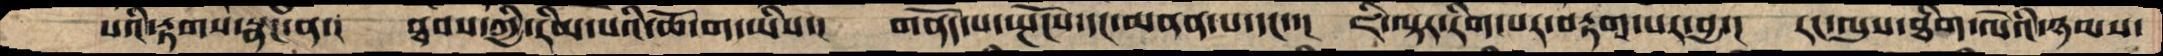པའི་རྟགས་སྣང་ན་།  ཐབས་ཀྱི་རིམ་པའི་ཆོ་ག་ཡིས་།  གནདོ་པ་སྤོངས་དང་མནན་པ་དང་་།  ཇི་ལྟར་རིག་པར་བརྟག་པར་བྱ་།  རང་ལུས་ཐིག་ལེའི་ཉམས་
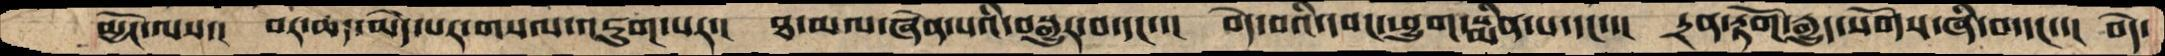མྱོང་ལས་།  བར་ཆད་མེད་པར་གསལ་འཇུག་པར་།  ཐ་མལ་ཞེན་པའི་བསྒྱུར་བ་དང་་།  བདེ་བའི་དབང་ཕྱུག་སྨིན་པ་དང་་།  དྲན་རྟོག་རྒྱུད་སོགས་ཞི་བ་དང་་།  བདེ་
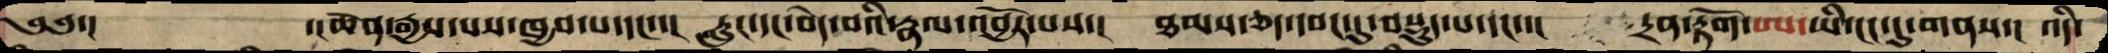༄༅་།     ་།ཆེན་རྒྱས་པས་ཁྱབ་པ་དང་་།  རླུང་དང་བདེ་བའི་སྣལ་འབྱོར་པས་།  ཐམས་ཅད་དབང་དུ་བསྡུད་པ་དང་་།  དྲན་རྟོག་ཨ་ཡི་ངང་དུ་གནས་།  འདི་
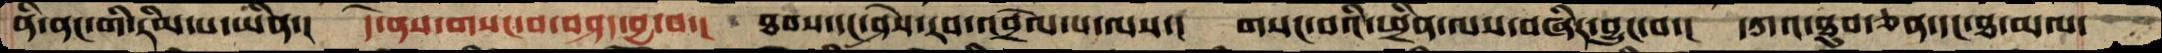ནི་ནང་གི་རིམ་པ་ཡིན་།  དེ་ནས་གསང་བ་བཤད་བྱ་བ་།  ཐབས་དང་ཤེས་རབ་འབྲེལ་པ་ལས་།  གསང་བའི་ཕྲིན་ལས་བཞིར་བྱུང་པ་།  དཀའ་ཐུབ་ཅན་དང་ཐ་མལ་
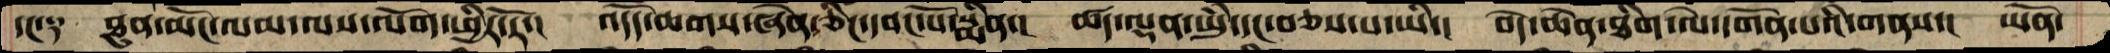དང༑   ཐུན་མོང་ལམ་ལས་ལོག་ཕྱིར་རོ་།  འདོད་ཆགས་ཞེན་ཅིང་དབང་པོ་སྨིན་།  ཚད་ལྡན་ཡུཾ་དང་བཅས་པ་ཡི་།  བདེ་ཆེན་ཐིག་ལེ་དགོན་པའི་གནས་།  ཡོན་
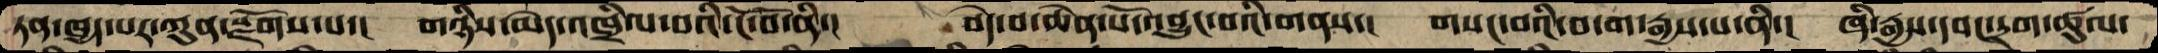ཏན་ཁྱད་པར་ཀུན་སྫོགས་པ་།  གཉིས་མེད་འཁྲིལ་བའི་ངོ་བོ་ནི་།  བདེ་བ་ཆེན་པོ་འབྱུང་བའི་གནས་།  གསང་བའི་བདག་རྒྱས་པ་ནི་།  ཞི་རྒྱས་དབང་དྲག་ཚུལ་
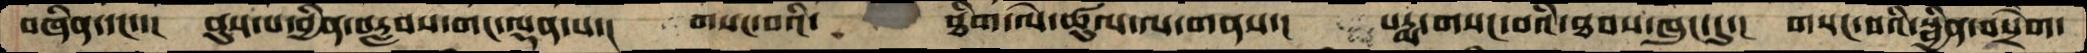བཞིན་དང་་།  ནུས་པ་བྱིན་བརླབས་གང་ལྡན་པ་།  གསང་བའི་    ཐིག་ལེ་ཚུལ་ལ་གནས་།  པདྨ་གསང་བའི་ཐབས་ཁུང་དུ་།  གསང་བའི་སྦྱིན་བསྲེག་
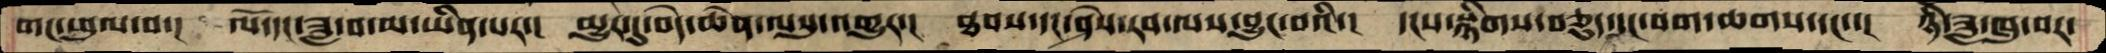གང་ཕུལ་བ་།  ལོ་དང་ཟླ་བ་མ་ཡིན་པར་།  མྱུར་དུ་བདེ་ཆེན་ལསུ་འགྱུར་།  ཐབས་དང་ཤེས་རབ་ལས་བྱུང་བའི་།  དངས་སྙིགས་བཅུད་དང་བག་ཆགས་དང་་།  ཉི་ཟླ་ཁུ་བར་
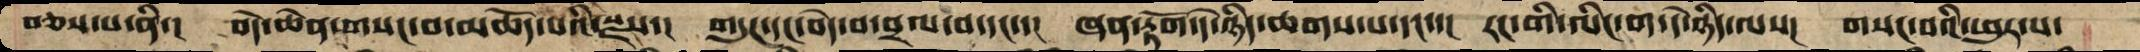བཅས་པ་ནི་།  བདེ་ཆེན་གསང་བ་མཆོད་པའི་སྫས་།  གདུཌ་དང་བདེ་བ་བྲལ་བ་དང་་།   ཞན་རྟོག་དེ་ཉིད་ཆགས་པ་དང་་།  རང་གི་ལིང་ག་དེ་ཉིད་ལས་།  གསང་བའི་ཕུར་པ་
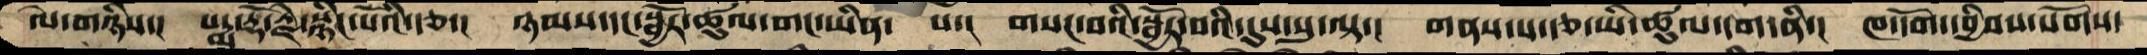ལེ་གཉིས་།  པདྨ་རྡོ་རྗེ་སྙིང་པོའི་རྩ་།  ཉམས་དང་སྦྱོར་ཚུལ་གང་ཡིན་  པ་།  གསང་བའི་སྦྱོར་བའི་དུས་སུ་ལྟ་།  གནས་པ་རྩ་ཡི་ཚུལ་དག་ནི་།  ཁ་དོག་དབྱིབས་སོགས་
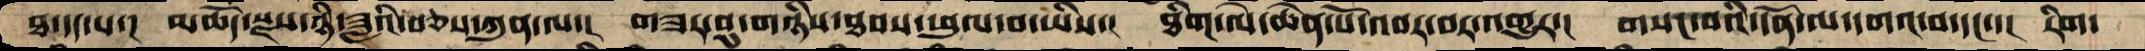ཐ་དད་པ་།  མཆོད་སྫས་ཉི་ཟླའི་བཅས་ཀུན་ལ་།  གཟར་བུ་གཉིས་ཐབས་ཕུལ་བ་ཡིས་།  ཐིག་ལེ་ཆེན་པོ་འབར་བར་འགྱུར་།  གསང་བའི་དོན་ལ་དགའ་བ་དང་་།  རིག་
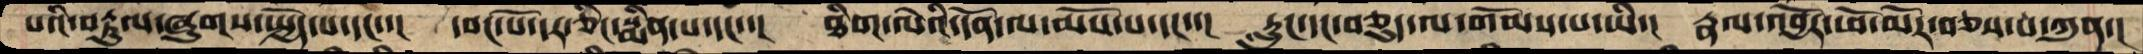པའི་བརྟུལ་ཞུགས་སྤྱོད་པ་དང་་།  དབང་པོ་དར་ཅིང་སྨིན་པ་དང་་།  ཐིག་ལེའི་དོན་ལ་མོས་པ་དང་་།  རླུང་དང་བཅུད་ལ་གོམས་པ་ཡི་།  རྣལ་འབྱོར་ཕོ་མོར་བཅས་པ་ཀུན་།
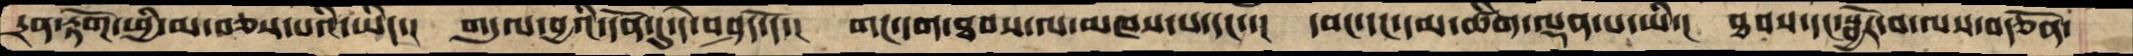དྲན་རྟོག་ཕྱི་མ་བཅས་པའི་ཡིད་།  གདུལ་བྱའི་དོན་དུ་དེ་བཤད་དོ་།  གང་དག་ཐབས་ལ་མཁས་པ་དང་་།  དབང་དང་དམ་ཚིག་ལྡན་པ་ཡི་།  ཐབས་དང་སྦྱོར་བ་ལས་བརྩོན་
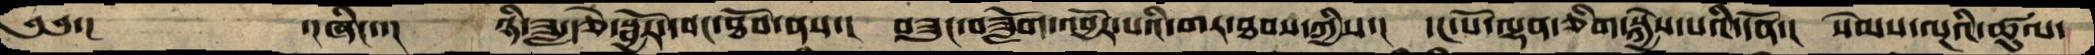༄༅་།       ་།ཞིང་་།  ཉི་ཟླ་རྩེ་སྦྱོར་དབང་ཐོབ་ནས་།  བཟུང་བཟློག་འབྱོར་པའི་གར་ཐབས་ཀྱིས་།  དང་པོ་ལྷན་ཅིག་སྐྱེས་པའི་དོན་།  སེམས་ལྔའི་ཚུལ་
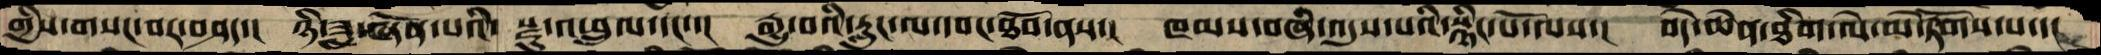གྱིས་གསང་བར་བཤད་།  ཉི་ཟླ་ཞོན་པའི་ སྫུ་འཕྲུལ་དང་་།  རྒྱུ་བའི་རླུང་ལ་དབང་ཐོབ་ནས་།  ཁམས་བཞི་འདུས་པའི་སྙིང་པོ་ལས་།  བདེ་ཆེན་ཐིག་ལེ་མེ་ཏོགས་པ་་།
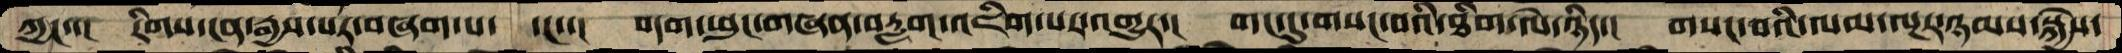ཀྱང་་།  རིགས་ངན་རྒྱས་པར་བཞག་པ་།  དང་་།  བདག་ཕུང་གཞན་བརླག་འཇིག་པར་འགྱུར་།  གང་དུ་གསང་བའི་ཐིག་ལེ་ཉིད་།  གསང་བའི་ལམ་ལྔར་ཉམས་སྐྱེས་
